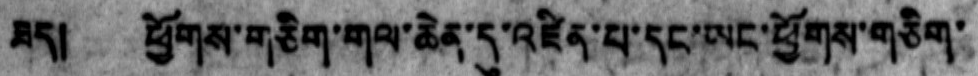ཟད།  ཕྱོགས་གཅིག་གལ་ཆེན་དུ་འཛིན་པ་དང་ཡང་ཕྱོགས་གཅིག་
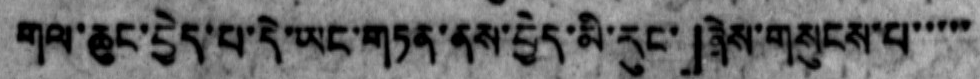གལ་ཆུང་བྱེད་པ་དེ་ཡང་གཏན་ནས་བྱེད་མི་རུང་」ཞེས་གསུངས་པ་་་་་
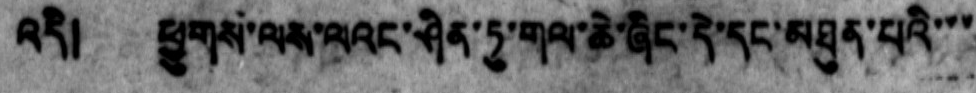འདི།  ཕྱུགས་ལས་ལའང་ཤིན་ཏུ་གལ་ཆེ་ཞིང་དེ་དང་མཐུན་པའི་་་
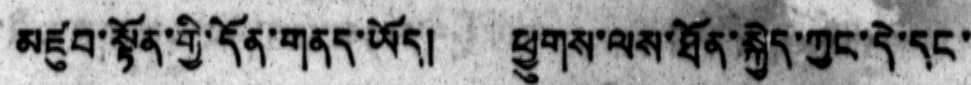མཛུབ་སྟོན་གྱི་དོན་གནད་ཡོད། ཕྱུགས་ལས་ཐོན་སྐྱེད་ཀྱང་དེ་དང་
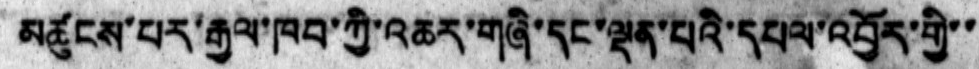མཚུངས་པར་རྒྱལ་ཁབ་ཀྱི་འཆར་གཞི་དང་ལྡན་པའི་དཔལ་འབྱོར་གྱི་་
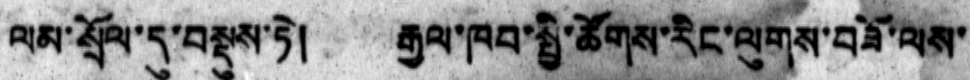ལམ་སྲོལ་དུ་བསྡུས་ཏེ། རྒྱལ་ཁབ་སྤྱི་ཚོགས་རིང་ལུགས་བཟོ་ལས་
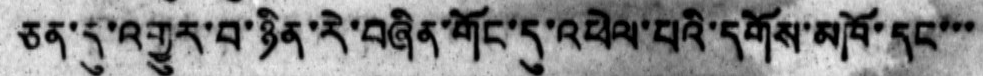ཅན་དུ་འགྱུར་བ་ཉིན་རེ་བཞིན་གོང་དུ་འཕེལ་པའི་དགོས་མཁོ་དང་་་
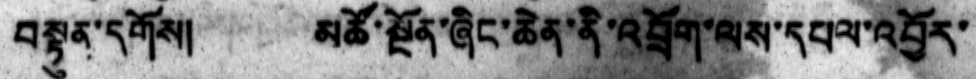བསྟུན་དགོས།  མཚོ་སྔོན་ཞིང་ཆེན་ནི་འབྲོག་ལས་དཔལ་འབྱོར་
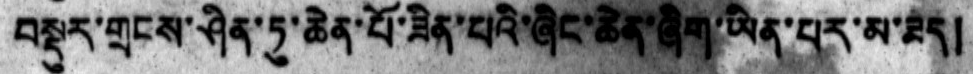བསྡུར་གྲངས་ཤིན་ཏུ་ཆེན་པོ་ཟིན་པའི་ཞིང་ཆེན་ཞིག་ཡིན་པར་མ་ཟད།
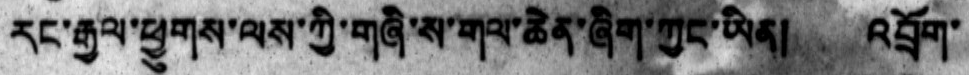རང་རྒྱལ་ཕྱུགས་ལས་ཀྱི་གཞི་ས་གལ་ཆེན་ཞིག་ཀྱང་ཡིན།  འབྲོག་
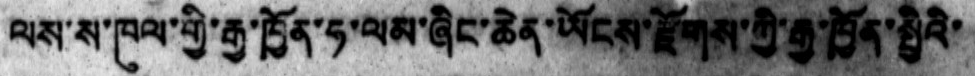ལས་ས་ཁུལ་གྱི་རྒྱ་ཁྱོན་ཧ་ལམ་ཞིང་ཆེན་ཡོངས་རྫོགས་ཀྱི་རྒྱ་ཁྱོན་སྤྱིའི་
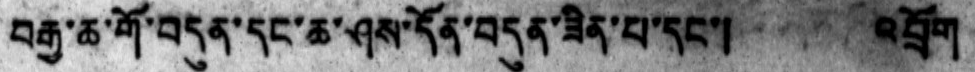བརྒྱ་ཆ་གོ་བདུན་དང་ཆ་ཤས་དོན་བདུན་ཟིན་པ་དང་།  འབྲོག
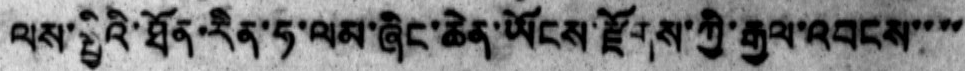ལས་སྤྱིའི་ཐོན་རིན་ཧ་ལམ་ཞིང་ཆེན་ཡོངས་རྫོགས་ཀྱི་རྒྱལ་འབངས་་་་
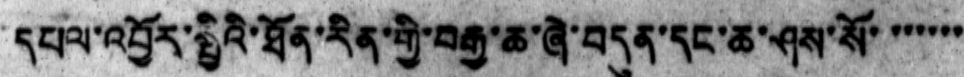དཔལ་འབྱོར་སྤྱིའི་ཐོན་རིན་གྱི་བརྒྱ་ཆ་ཞེ་བདུན་དང་ཆ་ཤས་སོ་་་་་་
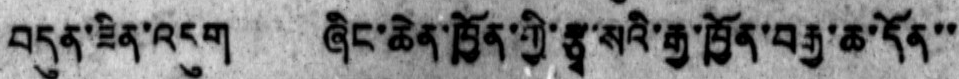བདུན་ཟིན་འདུག ཞིང་ཆེན་ཁྱོན་ཀྱི་རྩྭ་སའི་རྒྱ་ཁྱོན་བརྒྱ་ཆ་དོན་་
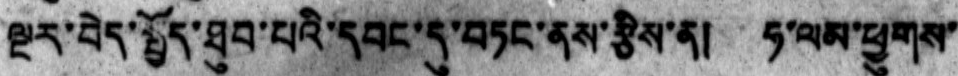ལྔར་བེད་སྤྱོད་ཐུབ་པའི་དབང་དུ་བཏང་ནས་རྩིས་ན། ཧ་ལམ་ཕྱུགས་
